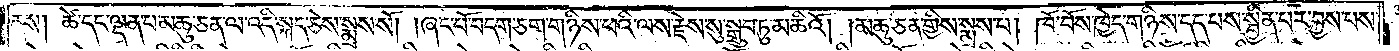ནས། ཚེ་དང་ལྡན་པ་མཆུ་ཅན་ལ་འདི་སྐད་ཅེས་སྨྲས་སོ། །ཞང་པོ་བདག་ཅག་གཉིས་ཕའི་ལས་རྗེས་སུ་སྒྲུབ་ཏུ་མཆིའོ། །མཆུ་ཅན་གྱིས་སྨྲས་པ། ཁོ་བོས་ཁྱེད་གཉིས་དད་པས་སྦྱིན་པར་བྱས་པས་
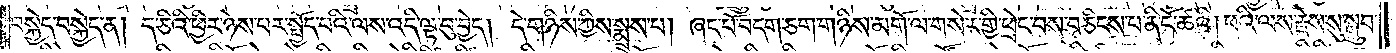བསྐྱེད་བསྐྱེད་ན། ད་ཅིའི་ཕྱིར་ཉེས་པར་སྤྱོད་པའི་ལས་འདི་ལྟ་བུ་བྱེད། དེ་གཉིས་ཀྱིས་སྨྲས་པ། ཞང་པོ་བདག་ཅག་གཉིས་མགོ་ལ་གསེར་གྱི་ཕྲེང་བས་བཅིངས་པ་ནི་ངོ་ཚའི། ཕའི་ལས་རྗེས་སུ་སྒྲུབ་
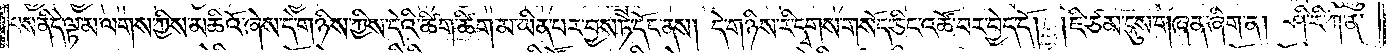པས་ནི་དེ་ལྟ་མ་ལགས་ཀྱིས་མཆིའོ་ཞེས་དེ་གཉིས་ཀྱིས་དེའི་ཚིག་ཚིག་མ་ཡིན་པར་བྱས་ཏེ་དོང་ནས། དེ་གཉིས་རི་དྭགས་གསོད་ཅིང་འཚོ་བར་བྱེད་དོ། །ཇི་ཙམ་དུས་གཞན་ཞིག་ན། ཤི་རི་ཀ་ན་
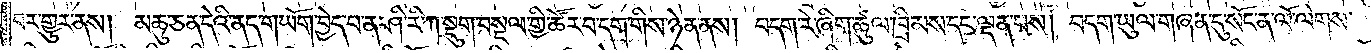བར་གྱུར་ནས། མཆུ་ཅན་དེའི་ནད་གཡོག་བྱེད་པ་ན་ཤི་རི་ཀ་སྡུག་བསྔལ་གྱི་ཚོར་བ་དག་གིས་ཉེན་ནས། བདག་རེ་ཞིག་ཚུལ་ཁྲིམས་དང་ལྡན་པས། བདག་ཡུལ་གཞན་དུ་སོང་ན་ལོ་ལེགས་
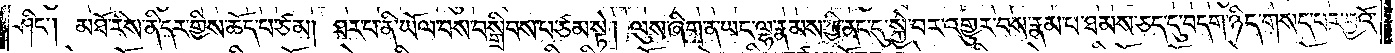ཤིང༌། མཐོ་རིས་ནི་དར་གྱིས་ཆོད་པ་ཙམ། ཐར་པ་ནི་ཡོལ་བས་བསྒྲིབས་པ་ཙམ་སྟེ། ལུས་ཞིག་ན་ཡང་ལྷ་རྣམས་ཀྱི་ནང་དུ་སྐྱེ་བར་འགྱུར་བས་རྣམ་པ་ཐམས་ཅད་དུ་བདག་ཉིད་གསད་པར་བྱའོ་
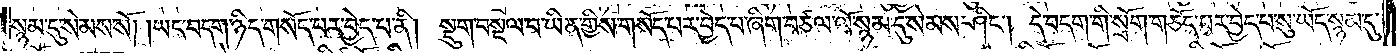སྙམ་དུ་སེམས་སོ། །ཡང་བདག་ཉིད་གསོད་པར་བྱེད་པ་ནི། སྡུག་བསྔལ་བ་ཡིན་གྱིས་གསོད་པར་བྱེད་པ་ཞིག་བཙལ་ལོ་སྙམ་དུ་སེམས་ཤིང༌། དེ་བདག་གི་སྲོག་གཅོད་བར་བྱེད་པ་སུ་ཡོད་སྙམ་དུ་
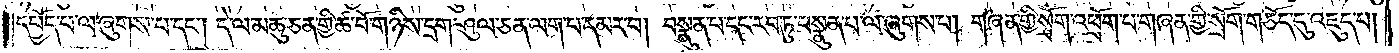དཔྱོད་པ་ལ་ཞུགས་པ་དང༌། དེ་ལ་མཆུ་ཅན་གྱི་ཚ་བོ་གཉིས་དྲག་ཤུལ་ཅན་ལག་པ་དམར་པ། བསྣུན་པ་དང་རབ་ཏུ་བསྣུན་པ་ལ་ཞུགས་པ། གཞན་གྱི་སྲོག་འཕྲོག་པ་གཞན་གྱི་སྲོག་གཅོད་དུ་འཇུད་པ།
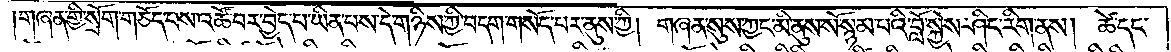གཞན་གྱི་སྲོག་གཅོད་པས་འཚོ་བར་བྱེད་པ་ཡིན་པས་དེ་གཉིས་ཀྱི་བདག་གསོད་པར་ནུས་ཀྱི། གཞན་སུས་ཀྱང་མི་ནུས་སོ་སྙམ་པའི་བློ་སྐྱེས་ཤིང་རིག་ནས། ཚེ་དང་
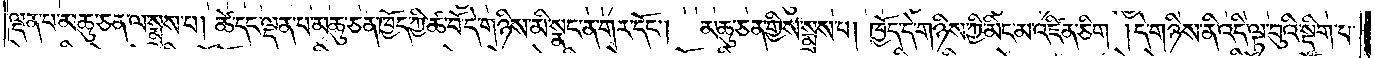ལྡན་པ་མཆུ་ཅན་ལ་སྨྲས་པ། ཚེ་དང་ལྡན་པ་མཆུ་ཅན་ཁྱོད་ཀྱི་ཚ་བོ་དེ་གཉིས་མི་སྣང་ན་གར་དོང༌།   མཆུ་ཅན་གྱིས་སྨྲས་པ། ཁྱོད་དེ་གཉིས་ཀྱི་མིང་མ་འཛིན་ཅིག །དེ་གཉིས་ནི་འདི་ལྟ་བུའི་སྡིག་པ་
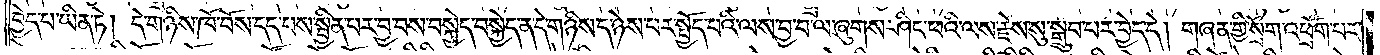བྱེད་པ་ཡིན་ཏེ། དེ་གཉིས་ཁོ་བོས་དད་པས་སྦྱིན་པར་བྱ་བས་བསྐྱེད་བསྐྱེད་ན་དེ་གཉིས་ད་ཉེས་པར་སྤྱོད་པའི་ལས་བྱ་བ་ལ་ཞུགས་ཤིང་ཕའི་ལས་རྗེས་སུ་སྒྲུབ་པར་བྱེད་དེ། གཞན་གྱི་སྲོག་འཕྲོག་པར་
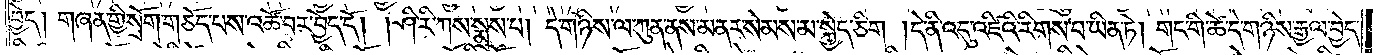བྱེད། གཞན་གྱི་སྲོག་གཅོད་པས་འཚོ་བར་བྱེད་དོ། །ཤི་རི་ཀས་སྨྲས་པ། དེ་གཉིས་ལ་ཀུན་ནས་མནར་སེམས་མ་སྐྱེད་ཅིག །དེ་ནི་འདུ་འཛིའི་རིགས་པ་ཡིན་ཏེ། གང་གི་ཚེ་དེ་གཉིས་རྒྱལ་བྱེད་
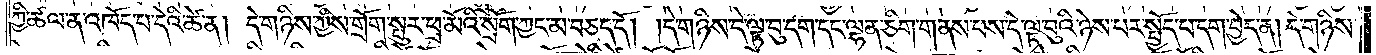ཀྱི་ཚལ་ན་འཁོད་པ་དེའི་ཚེ་ན། དེ་གཉིས་ཀྱིས་གྲོག་སྤུར་ཕྲ་མོའི་སྲོག་ཀྱང་མ་བཅད་དོ། །དེ་གཉིས་དེ་ལྟ་བུ་དག་དང་ལྷན་ཅིག་གནས་པས་དེ་ལྟ་བུའི་ཉེས་པར་སྤྱོད་པ་དག་བྱེད་ན། དེ་གཉིས་
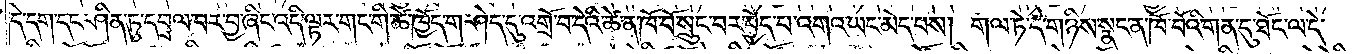དེ་དག་དང་ཤིན་ཏུ་དབྲལ་བར་བྱ་ཞིང་འདི་ལྟར་གང་གི་ཚེ་ཁྱོད་ག་ཤེད་དུ་འགྲོ་བ་དེའི་ཚེ་ན་ཁོ་བོ་སྲུང་བར་བྱེད་པ་འགའ་ཡང་མེད་པས། གལ་ཏེ་དེ་གཉིས་སྣང་ན་ཁོ་བོའི་གན་དུ་ཐོང་ལ་དེ་
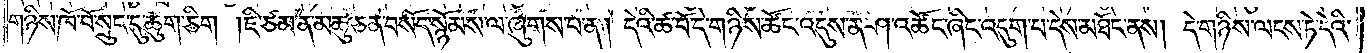གཉིས་ཁོ་བོ་སྲུང་དུ་ཆུག་ཅིག །ཇི་ཙམ་ན་མཆུ་ཅན་བསོད་སྙོམས་ལ་ཞུགས་པ་ན། དེའི་ཚ་བོ་དེ་གཉིས་ཚོང་འདུས་ན་ཤ་འཚོང་ཞིང་འདུག་པ་དེས་མཐོང་ནས། དེ་གཉིས་ལངས་ཏེ་དེའི་
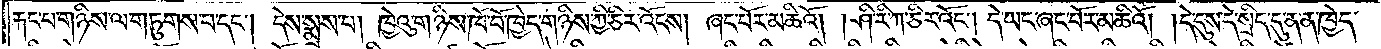རྐང་པ་གཉིས་ལ་གཏུགས་པ་དང༌། དེས་སྨྲས་པ། ཁྱེའུ་གཉིས་ཁོ་བོ་ཁྱེད་གཉིས་ཀྱི་ཅིར་འོངས། ཞང་པོར་མཆིའོ། །ཤི་རི་ཀ་ཅིར་འོང༌། དེ་ཡང་ཞང་པོར་མཆིའོ། །དེ་དུས་དེ་སྲིད་དུ་ན་ན་ཁྱེད་
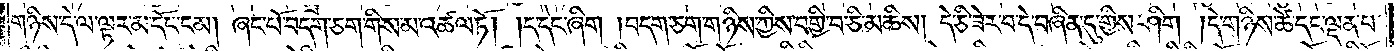གཉིས་དེ་ལ་ལྟར་མ་དོང་ངམ། ཞང་པོ་བདག་ཅག་གིས་མ་འཚལ་ཏོ། །ད་དེང་ཞིག །བདག་ཅག་གཉིས་ཀྱིས་བགྱི་བ་ཅི་མཆིས། དེ་ཅི་ཟེར་བ་དེ་བཞིན་དུ་གྱིས་ཤིག །དེ་གཉིས་ཚེ་དང་ལྡན་པ་
